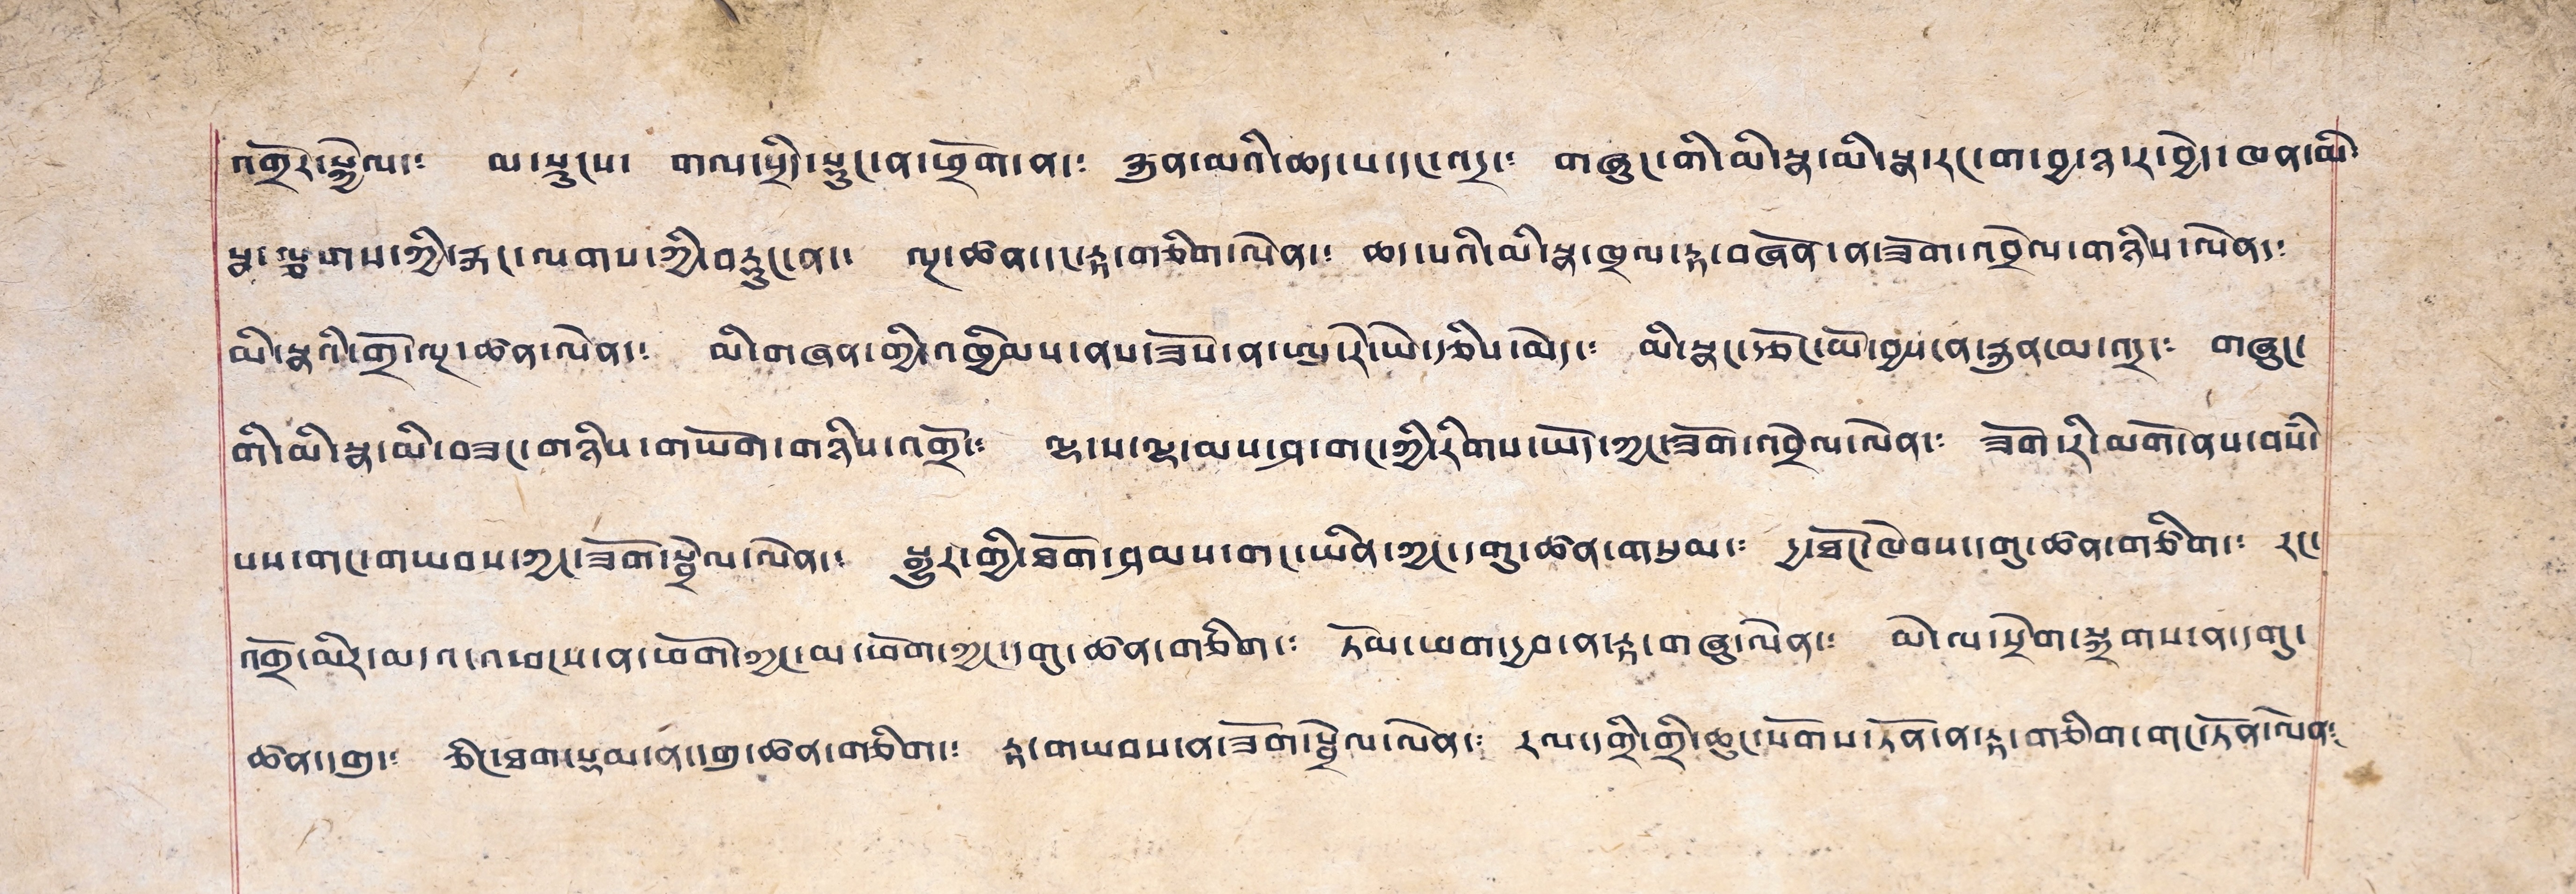འགྲོར་སྐྱེལ་༴ མ་སྡུངས། གལ་སྲིད་སྟུང་ན་ཕྲོག་ན་༴ རྐུན་མའི་ཆད་པ་དང་འདྲ་༴ གཞུང་གི་མི་སྣ་མི་སྣ་རང་ག་བྱ་ཉ་ར་བྱེད་ཁན་མི་
སྣ་ལྕགས་ཀྱི་རྐང་ལགས་ཀྱི་བརྡུང་ན་༴ ལྔ་ཚན་དང་རྟ་གཅིག་ལེན་༴ ཆད་པའི་མི་སྣ་ཁྲལ་རྟ་བཞོན་ན་ཟོག་འབྲེལ་གཉིས་ལེན་༴
མི་སྣའི་གྲོ་ལྔ་ཚན་ལེན་༴ མི་གཞན་གྱི་འཁྱིམས་ནས་ཟོས་ན་ཨུ་རེ་ཡེ་རྩིས་མེད་༴ མི་སྣང་རྩོང་ཡོ་བྱས་ན་རྐུན་མ་འདྲ་༴ གཞུང་
གི་མི་སྣ་མི་བཟང་གཉིས་གཡོག་གཉིས་འགྲོ་༴ ལྷ་པ་ལྷ་མས་ཤ་གང་ཀྱི་རིགས་ཡོད་ཀྱང་ཟོག་འབྲེལ་ལེན་༴ ཟོག་རི་མགོ་ནས་བསཾ་
པས་གང་གཡབས་ཀྱང་ཟོག་སྦྲེལ་ལེན་༴ སྒྱུར་གྱི་ཐོག་ཤམས་གང་ཡིན་ཀྱང་དགུ་ཚན་གསུམ་༴ དྱ་ཐོང་ཁེབས་དགུ་ཚན་གཅིག་༴ རང་
འགྲོ་མིར་མདའ་འཕངས་ན་ཕོག་ཀྱང་མ་ཕོག་ཀྱང་དགུ་ཚན་གཅིག་༴ ཏེམ་ཕག་དྱབ་ན་རྟ་གཞུ་ལེན་༴ མེ་ལ་སྲེག་སྐྲགས་ན་དགུ་
ཚན་དགུ་༴ ཅིང་ཐག་སྡམ་ན་དགུ་ཚན་གཅིག་༴ རྟ་གཡབས་ན་ཟོག་སྦྲེལ་ལེན་༴ རལ་དགྲི་གྲི་ཆུང་སོགས་ཏོན་ན་རྟ་གཅིག་གང་ཏོན་ལེན་༴
